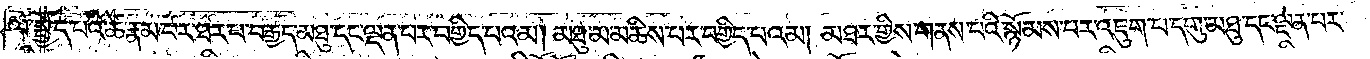ལ་སྤྱོད་པའི་ཚེ་རྣམ་པར་ཐར་པ་བརྒྱད་མཐུ་དང་ལྡན་པར་བགྱིད་པའམ། མཐུ་མ་མཆིས་པར་བགྱིད་པའམ། མཐར་གྱིས་གནས་པའི་སྙོམས་པར་འཇུག་པ་དགུ་མཐུ་དང་ལྡན་པར་
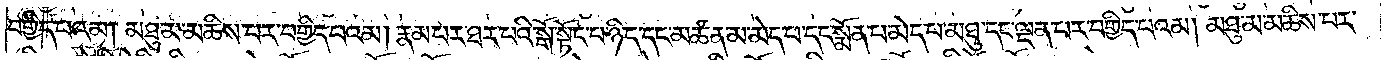བགྱིད་པའམ། མཐུ་མ་མཆིས་པར་བགྱིད་པའམ། རྣམ་པར་ཐར་པའི་སྒོ་སྟོང་པ་ཉིད་དང་མཚན་མ་མེད་པ་དང་སྨོན་པ་མེད་པ་མཐུ་དང་ལྡན་པར་བགྱིད་པའམ། མཐུ་མ་མཆིས་པར་
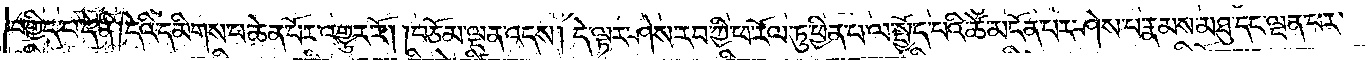བགྱིད་པ་དེ་ནི། དེའི་དམིགས་པ་ཆེན་པོར་འགྱུར་རོ། །བཅོམ་ལྡན་དས། དེ་ལྟར་ཤེས་རབ་ཀྱི་ཕ་རོལ་ཏུ་ཕྱིན་པ་ལ་སྤྱོད་པའི་ཚེ་མངོན་པར་ཤེས་པ་རྣམས་མཐུ་དང་ལྡན་པར་
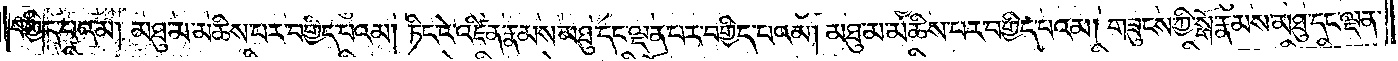བགྱིད་པའམ། མཐུ་མ་མཆིས་པར་བགྱིད་པའམ། ཏིང་ངེ་འཛིན་རྣམས་མཐུ་དང་ལྡན་པར་བགྱིད་པའམ། མཐུ་མ་མཆིས་པར་བགྱིད་པའམ། གཟུངས་ཀྱི་སྒོ་རྣམས་མཐུ་དང་ལྡན་
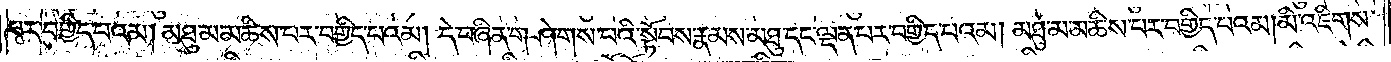པར་བགྱིད་པའམ། མཐུ་མ་མཆིས་པར་བགྱིད་པའམ། དེ་བཞིན་གཤེགས་པའི་སྟོབས་རྣམས་མཐུ་དང་ལྡན་པར་བགྱིད་པའམ། མཐུ་མ་མཆིས་པར་བགྱིད་པའམ། མི་འཇིགས་
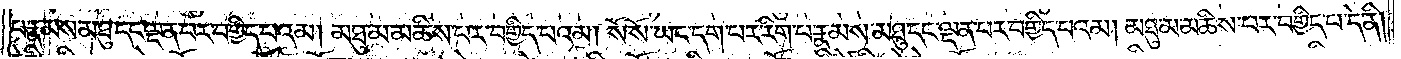པ་རྣམས་མཐུ་དང་ལྡན་པར་བགྱིད་པའམ། མཐུ་མ་མཆིས་པར་བགྱིད་པའམ། སོ་སོ་ཡང་དག་པར་རིག་པ་རྣམས་མཐུ་དང་ལྡན་པར་བགྱིད་པའམ། མཐུ་མ་མཆིས་པར་བགྱིད་པ་དེ་ནི།
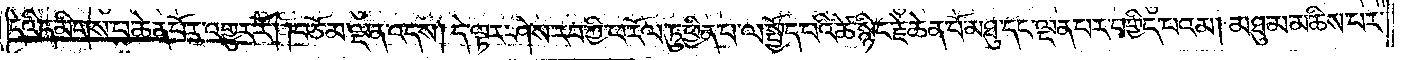དེའི་དམིགས་པ་ཆེན་པོར་འགྱུར་རོ། །བཅོམ་ལྡན་དས། དེ་ལྟར་ཤེས་རབ་ཀྱི་ཕ་རོལ་ཏུ་ཕྱིན་པ་ལ་སྤྱོད་པའི་ཚེ་སྙིང་རྗེ་ཆེན་པོ་མཐུ་དང་ལྡན་པར་བགྱིད་པའམ། མཐུ་མ་མཆིས་པར་
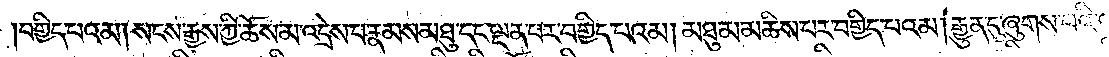བགྱིད་པའམ། སངས་རྒྱས་ཀྱི་ཆོས་མ་འདྲེས་པ་རྣམས་མཐུ་དང་ལྡན་པར་བགྱིད་པའམ། མཐུ་མ་མཆིས་པར་བགྱིད་པའམ། རྒྱུན་དུ་ཞུགས་པའི་འབྲས་
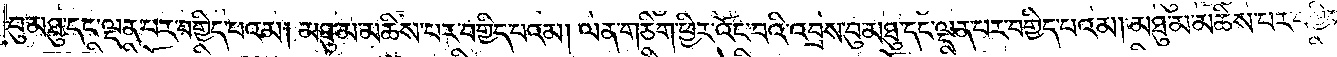བུ་མཐུ་དང་ལྡན་པར་བགྱིད་པའམ། མཐུ་མ་མཆིས་པར་བགྱིད་པའམ། ལན་གཅིག་ཕྱིར་འོང་བའི་འབྲས་བུ་མཐུ་དང་ལྡན་པར་བགྱིད་པའམ། མཐུ་མ་མཆིས་པར་བགྱིད་
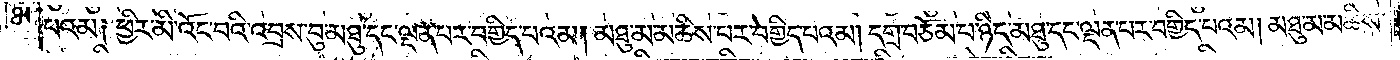པའམ༑ ཕྱིར་མི་འོང་བའི་འབྲས་བུ་མཐུ་དང་ལྡན་པར་བགྱིད་པའམ། མཐུ་མ་མཆིས་པར་བགྱིད་པའམ། དགྲ་བཅོམ་པ་ཉིད་མཐུ་དང་ལྡན་པར་བགྱིད་པའམ། མཐུ་མ་མཆིས་
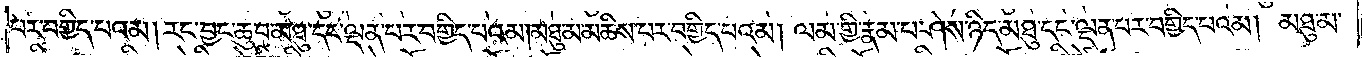པར་བགྱིད་པའམ། རང་བྱང་ཆུབ་མཐུ་དང་ལྡན་པར་བགྱིད་པའམ། མཐུ་མ་མཆིས་པར་བགྱིད་པའམ། ལམ་གྱི་རྣམ་པ་ཤེས་པ་ཉིད་མཐུ་དང་ལྡན་པར་བགྱིད་པའམ། མཐུ་མ་
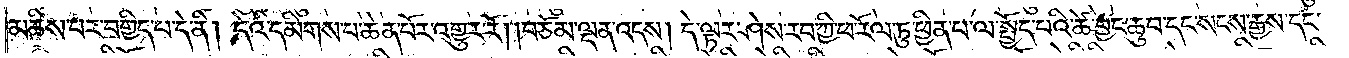མཆིས་པར་བགྱིད་པ་དེ་ནི། དེའི་དམིགས་པ་ཆེན་པོར་འགྱུར་རོ། །བཅོམ་ལྡན་འདས། དེ་ལྟར་ཤེས་རབ་ཀྱི་ཕ་རོལ་ཏུ་ཕྱིན་པ་ལ་སྤྱོད་པའི་ཚེ་བྱང་ཆུབ་དང་སངས་རྒྱས་དང་
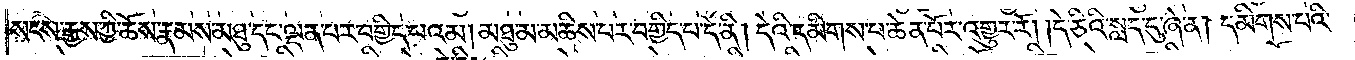སངས་རྒྱས་ཀྱི་ཆོས་རྣམས་མཐུ་དང་ལྡན་པར་བགྱིད་པའམ། མཐུ་མ་མཆིས་པར་བགྱིད་པ་དེ་ནི། དེའི་དམིགས་པ་ཆེན་པོར་འགྱུར་རོ། །དེ་ཅིའི་སླད་དུ་ཞེ་ན། དམིགས་པའི་
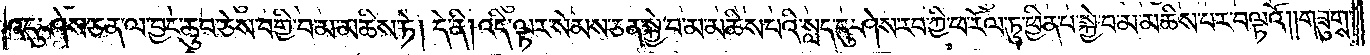འདུ་ཤེས་ཅན་ལ་བྱང་ཆུབ་ཅེས་བགྱི་བ་མ་མཆིས་ཏེ། དེ་ནི། འདི་ལྟར་སེམས་ཅན་སྐྱེ་བ་མ་མཆིས་པའི་སླད་དུ་ཤེས་རབ་ཀྱི་ཕ་རོལ་ཏུ་ཕྱིན་པ་སྐྱེ་བ་མ་མཆིས་པར་བལྟའོ། །གཟུགས་
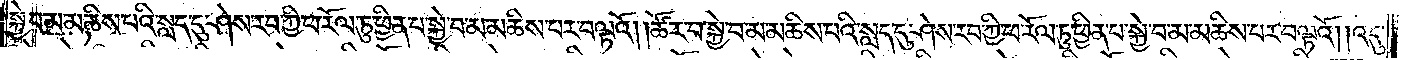སྐྱེ་བ་མ་མཆིས་པའི་སླད་དུ་ཤེས་རབ་ཀྱི་ཕ་རོལ་ཏུ་ཕྱིན་པ་སྐྱེ་བ་མ་མཆིས་པར་བལྟའོ། །ཚོར་བ་སྐྱེ་བ་མ་མཆིས་པའི་སླད་དུ་ཤེས་རབ་ཀྱི་ཕ་རོལ་ཏུ་ཕྱིན་པ་སྐྱེ་བ་མ་མཆིས་པར་བལྟའོ། །འདུ་
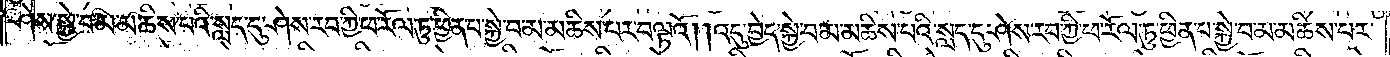ཤེས་སྐྱེ་བ་མ་མཆིས་པའི་སླད་དུ་ཤེས་རབ་ཀྱི་ཕ་རོལ་ཏུ་ཕྱིན་པ་སྐྱེ་བ་མ་མཆིས་པར་བལྟའོ། །འདུ་བྱེད་སྐྱེ་བ་མ་མཆིས་པའི་སླད་དུ་ཤེས་རབ་ཀྱི་ཕ་རོལ་ཏུ་ཕྱིན་པ་སྐྱེ་བ་མ་མཆིས་པར་
